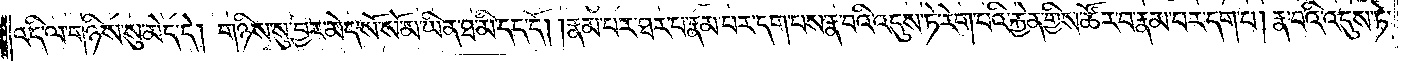འདི་ལ་གཉིས་སུ་མེད་དེ། གཉིས་སུ་བྱར་མེད་སོ་སོ་མ་ཡིན་ཐ་མི་དད་དོ། །རྣམ་པར་ཐར་པ་རྣམ་པར་དག་པས་རྣ་བའི་འདུས་ཏེ་རེག་པའི་རྐྱེན་གྱིས་ཚོར་བ་རྣམ་པར་དག་པ། རྣ་བའི་འདུས་ཏེ་
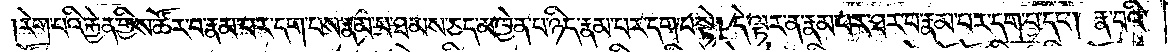རེག་པའི་རྐྱེན་གྱིས་ཚོར་བ་རྣམ་པར་དག་པས་རྣམ་པ་ཐམས་ཅད་མཁྱེན་པ་ཉིད་རྣམ་པར་དག་པ་སྟེ། དེ་ལྟར་ན་རྣམ་པར་ཐར་པ་རྣམ་པར་དག་པ་དང༌། རྣ་བའི་
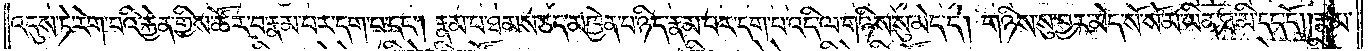འདུས་ཏེ་རེག་པའི་རྐྱེན་གྱིས་ཚོར་བ་རྣམ་པར་དག་པ་དང༌། རྣམ་པ་ཐམས་ཅད་མཁྱེན་པ་ཉིད་རྣམ་པར་དག་པ་འདི་ལ་གཉིས་སུ་མེད་དེ། གཉིས་སུ་བྱར་མེད་སོ་སོ་མ་ཡིན་ཐ་མི་དད་དོ། །རྣམ་
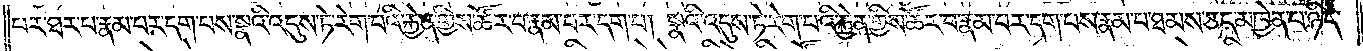པར་ཐར་པ་རྣམ་པར་དག་པས་སྣའི་འདུས་ཏེ་རེག་པའི་རྐྱེན་གྱིས་ཚོར་བ་རྣམ་པར་དག་པ། སྣའི་འདུས་ཏེ་རེག་པའི་རྐྱེན་གྱིས་ཚོར་བ་རྣམ་པར་དག་པས་རྣམ་པ་ཐམས་ཅད་མཁྱེན་པ་ཉིད་
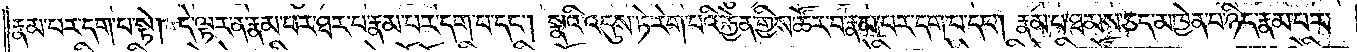རྣམ་པར་དག་པ་སྟེ། དེ་ལྟར་ན་རྣམ་པར་ཐར་པ་རྣམ་པར་དག་པ་དང༌། སྣའི་འདུས་ཏེ་རེག་པའི་རྐྱེན་གྱིས་ཚོར་བ་རྣམ་པར་དག་པ་དང༌། རྣམ་པ་ཐམས་ཅད་མཁྱེན་པ་ཉིད་རྣམ་པར་
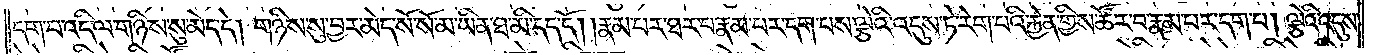དག་པ་འདི་ལ་གཉིས་སུ་མེད་དེ། གཉིས་སུ་བྱར་མེད་སོ་སོ་མ་ཡིན་ཐ་མི་དད་དོ། །རྣམ་པར་ཐར་པ་རྣམ་པར་དག་པས་ལྕེའི་འདུས་ཏེ་རེག་པའི་རྐྱེན་གྱིས་ཚོར་བ་རྣམ་པར་དག་པ། ལྕེའི་འདུས་
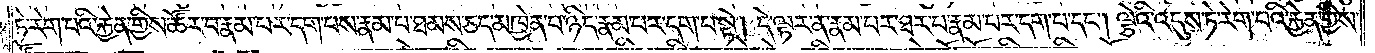ཏེ་རེག་པའི་རྐྱེན་གྱིས་ཚོར་བ་རྣམ་པར་དག་པས་རྣམ་པ་ཐམས་ཅད་མཁྱེན་པ་ཉིད་རྣམ་པར་དག་པ་སྟེ། དེ་ལྟར་ན་རྣམ་པར་ཐར་པ་རྣམ་པར་དག་པ་དང༌། ལྕེའི་འདུས་ཏེ་རེག་པའི་རྐྱེན་གྱིས་
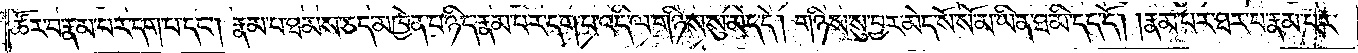ཚོར་བ་རྣམ་པར་དག་པ་དང༌། རྣམ་པ་ཐམས་ཅད་མཁྱེན་པ་ཉིད་རྣམ་པར་དག་པ་འདི་ལ་གཉིས་སུ་མེད་དེ། གཉིས་སུ་བྱར་མེད་སོ་སོ་མ་ཡིན་ཐ་མི་དད་དོ། །རྣམ་པར་ཐར་པ་རྣམ་པར་
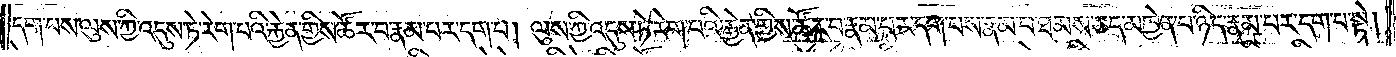དག་པས་ལུས་ཀྱི་འདུས་ཏེ་རེག་པའི་རྐྱེན་གྱིས་ཚོར་བ་རྣམ་པར་དག་པ། ལུས་ཀྱི་འདུས་ཏེ་རེག་པའི་རྐྱེན་གྱིས་ཚོར་བ་རྣམ་པར་དག་པས་རྣམ་པ་ཐམས་ཅད་མཁྱེན་པ་ཉིད་རྣམ་པར་དག་པ་སྟེ།
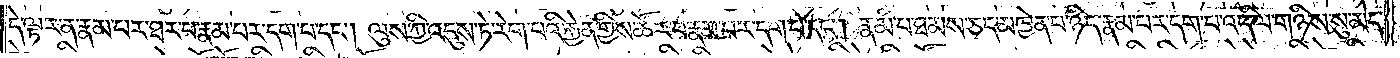དེ་ལྟར་ན་རྣམ་པར་ཐར་པ་རྣམ་པར་དག་པ་དང༌། ལུས་ཀྱི་འདུས་ཏེ་རེག་པའི་རྐྱེན་གྱིས་ཚོར་བ་རྣམ་པར་དག་པ་དང༌། རྣམ་པ་ཐམས་ཅད་མཁྱེན་པ་ཉིད་རྣམ་པར་དག་པ་འདི་ལ་གཉིས་སུ་མེད་
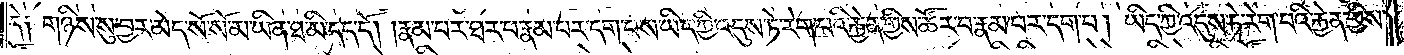དེ༑ གཉིས་སུ་བྱར་མེད་སོ་སོ་མ་ཡིན་ཐ་མི་དད་དོ། །རྣམ་པར་ཐར་པ་རྣམ་པར་དག་པས་ཡིད་ཀྱི་འདུས་ཏེ་རེག་པའི་རྐྱེན་གྱིས་ཚོར་བ་རྣམ་པར་དག་པ། ཡིད་ཀྱི་འདུས་ཏེ་རེག་པའི་རྐྱེན་གྱིས་
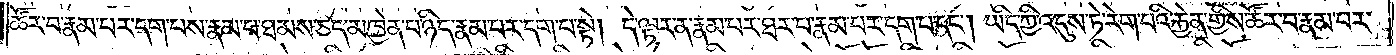ཚོར་བ་རྣམ་པར་དག་པས་རྣམ་པ་ཐམས་ཅད་མཁྱེན་པ་ཉིད་རྣམ་པར་དག་པ་སྟེ། དེ་ལྟར་ན་རྣམ་པར་ཐར་པ་རྣམ་པར་དག་པ་དང༌། ཡིད་ཀྱི་འདུས་ཏེ་རེག་པའི་རྐྱེན་གྱིས་ཚོར་བ་རྣམ་པར་
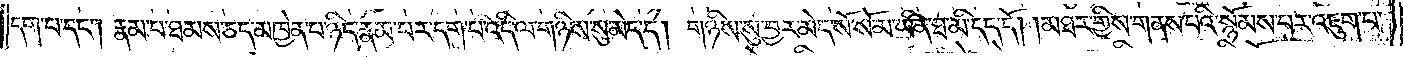དག་པ་དང༌། རྣམ་པ་ཐམས་ཅད་མཁྱེན་པ་ཉིད་རྣམ་པར་དག་པ་འདི་ལ་གཉིས་སུ་མེད་དེ། གཉིས་སུ་བྱར་མེད་སོ་སོ་མ་ཡིན་ཐ་མི་དད་དོ། །མཐར་གྱིས་གནས་པའི་སྙོམས་པར་འཇུག་པ་
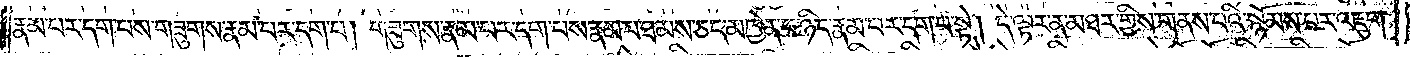རྣམ་པར་དག་པས་གཟུགས་རྣམ་པར་དག་པ། གཟུགས་རྣམ་པར་དག་པས་རྣམ་པ་ཐམས་ཅད་མཁྱེན་པ་ཉིད་རྣམ་པར་དག་པ་སྟེ། དེ་ལྟར་ན་མཐར་གྱིས་གནས་པའི་སྙོམས་པར་འཇུག་
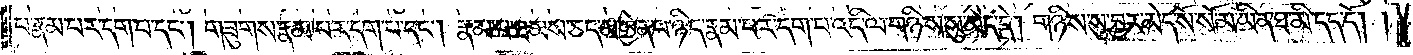པ་རྣམ་པར་དག་པ་དང༌། གཟུགས་རྣམ་པར་དག་པ་དང༌། རྣམ་པ་ཐམས་ཅད་མཁྱེན་པ་ཉིད་རྣམ་པར་དག་པ་འདི་ལ་གཉིས་སུ་མེད་དེ། གཉིས་སུ་བྱར་མེད་སོ་སོ་མ་ཡིན་ཐ་མི་དད་དོ། །
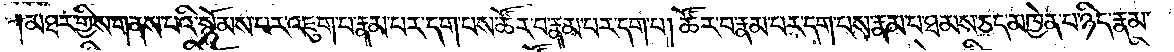མཐར་གྱིས་གནས་པའི་སྙོམས་པར་འཇུག་པ་རྣམ་པར་དག་པས་ཚོར་བ་རྣམ་པར་དག་པ། ཚོར་བ་རྣམ་པར་དག་པས་རྣམ་པ་ཐམས་ཅད་མཁྱེན་པ་ཉིད་རྣམ་
